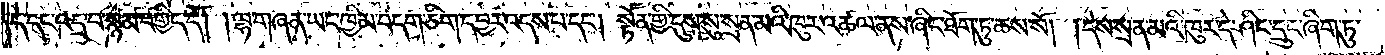དེ་དང་འདྲ་བསྙམ་བགྱིད་དོ། །ལྷ་གཞན་ཡང་ཁྱིམ་བདག་ཅིག་དབྱར་འདས་པ་དང༌། སྟོན་གྱི་དུས་སུ་སྲན་མའི་ཁུར་འཚལ་ནས་ཞིང་ཐོག་ཏུ་ཆས་སོ། །དེས་སྲན་མའི་ཁུར་དེ་ཤིང་དྲུང་ཞིག་ཏུ་
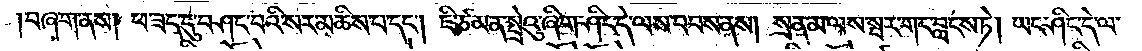བཞག་ནས། ཕ་ཟད་དུ་བཤང་བའི་སར་མཆིས་པ་དང༌། ཇི་ཙམ་ན་སྤྲེའུ་ཞིག་ཤིང་དེ་ལས་བབས་ནས། སྲན་མ་ལས་སྦར་གང་བླངས་ཏེ། ཡང་ཤིང་དེ་ལ་
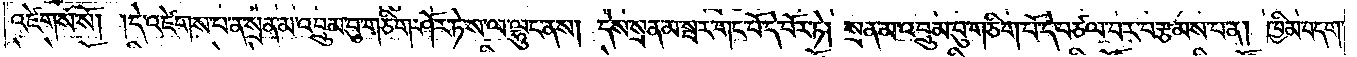འཛེགས་སོ། །དེ་འཛེགས་པ་ན་སྲན་མ་འབྲུམ་བུ་གཅིག་ཤོར་ཏེ་ས་ལ་ལྷུང་ནས། དེས་སྲན་མ་སྦར་གང་པོ་ད་བོར་ཏེ། སྲན་མ་འབྲུམ་བུ་གཅིག་པོ་དེ་བཙལ་བར་བརྩམས་པ་ན། ཁྱིམ་བདག་
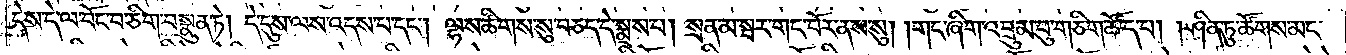དེས་དེ་ལ་བོང་བ་ཅིག་བསྣུན་ཏེ། དེ་དུས་ལས་འདས་པ་དང༌། ལྷས་ཚིགས་སུ་བཅད་དེ་སྨྲས་པ། སྲན་མ་སྦར་གང་བོར་ནས་སུ། །གང་ཞིག་འབྲུམ་བུ་གཅིག་ཚོད་པ། །ཤིན་ཏུ་ཚོགས་མང་
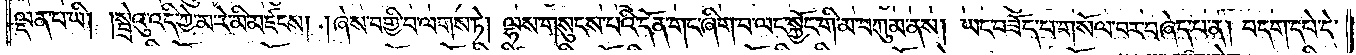ལྡན་པ་ཡི། །སྤྲེའུ་འདི་ཀྱེ་མ་རེ་མི་མཛངས། །ཞེས་བགྱི་བ་ལགས་ཏེ། ལྷས་གསུངས་པའི་དོན་གང་ཞིག་བ་ལང་སྐྱོང་གི་མ་བཀུམ་ནས། ཡང་བཟོད་པ་གསོལ་བར་བཞེད་པ་ན། བདག་དཔེ་དེ་
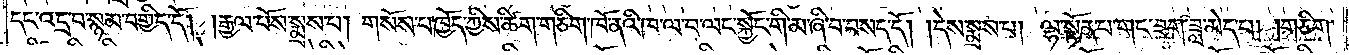དང་འདྲ་བ་སྙམ་བགྱིད་དོ། །རྒྱལ་པོས་སྨྲས་པ། གསོས་པ་ཁྱོད་ཀྱིས་ཚིག་གཅིག་ཁོ་ནའི་ཁ་ལ་བ་ལང་སྐྱོང་གི་མ་ཞི་བ་བསད་དོ། །དེས་སྨྲས་པ། ལྷ་སྟོན་པ་གང་ཟག་ཟླ་མེད་པ། །གཅིག་
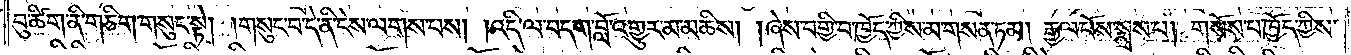བུ་ཚིག་ནི་གཅིག་གསུང་སྟེ། །གསུང་བ་དེ་ནི་ངེས་ལགས་པས། །འདི་ལ་བདག་བློ་འགྱུར་མ་མཆིས། །ཞེས་བགྱི་བ་ཁྱོད་ཀྱིས་མ་གསན་ཏམ། རྒྱལ་པོས་སྨྲས་པ། གསོས་པ་ཁྱོད་ཀྱིས་
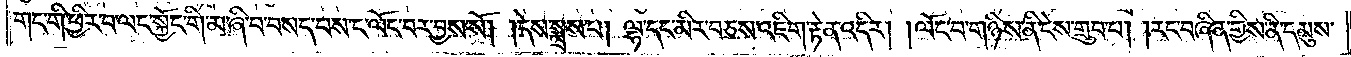གང་གི་ཕྱིར་བ་ལང་སྐྱོང་གི་མ་ཞི་བ་བསད་པས་ང་ལོང་བར་བྱས་སོ། །དེས་སྨྲས་པ། ལྷ་དང་མིར་བཅས་འཇིག་རྟེན་འདིར། །ལོང་བ་གཉིས་ནི་ངེས་གྲུབ་པ། །རང་བཞིན་གྱིས་ནི་དམུས་
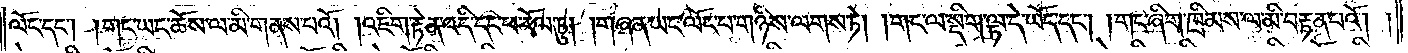ལོང་དང༌། །གང་ཡང་ཆོས་ལ་མི་གནས་པའོ། །འཇིག་རྟེན་འདི་དང་ཕ་རོལ་ཏུ། །གཞན་ཡང་ལོང་པ་གཉིས་ལགས་ཏེ། །གང་ལ་སྡིག་ལྟ་དེ་ཡོད་དང༌། །གང་ཞིག་ཁྲིམས་ལ་མི་བརྟན་པའོ། །
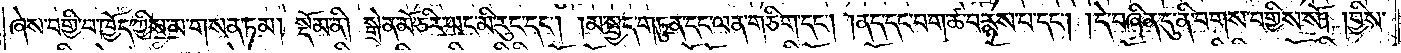ཞེས་བགྱི་བ་ཁྱོད་ཀྱིས་མ་གསན་ཏམ། སྡོམ་ནི། སྒྲེན་མོ་ཅིར་ཡང་མི་རུང་དང༌། །མ་སྤྱད་གཏུན་དང་ལན་གཅིག་དང༌། །ནད་དང་བག་ཚ་བརྙས་པ་དང༌། །དེ་བཞིན་དུ་ནི་བགས་བགྱིས་སོ། །བྱིས་
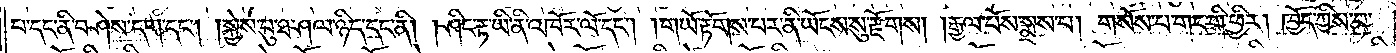པ་དང་ནི་བཤེས་དག་དང༌། །སྐྱེས་བུ་ཐ་ཤལ་ཉིད་དང་ནི། །ཤིང་རྟ་ཡི་ནི་འཁོར་ལོ་དང༌། །གཡོ་རྟོགས་པར་ནི་ཡོངས་སུ་རྫོགས། །རྒྱལ་པོས་སྨྲས་པ། གསོས་པ་གང་གི་ཕྱིར། ཁྱོད་ཀྱིས་བ་
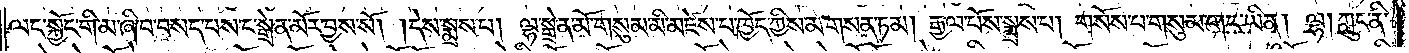ལང་སྐྱོང་གི་མ་ཞི་བ་བསད་པས་ང་སྒྲེན་མོར་བྱས་སོ། །དེས་སྨྲས་པ། ལྷ་སྒྲེན་མོ་གསུམ་མི་མཛེས་པ་ཁྱོད་ཀྱིས་མ་གསན་ཏམ། རྒྱལ་པོས་སྨྲས་པ། གསོས་པ་གསུམ་གང་ཡིན། །ལྷ། ཀླུང་ནི་
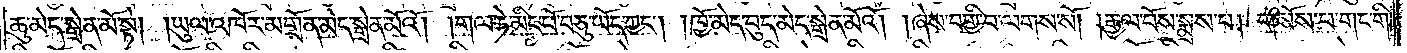ཆུ་མེད་སྒྲེན་མོ་སྟེ། །ཡུལ་འཁོར་མགྲོན་མེད་སྒྲེན་མོའོ། །གལ་ཏེ་མིང་པོ་བཅུ་ཡོད་ཀྱང༌། །ཁྱོ་མེད་བུད་མེད་སྒྲེན་མོའོ། །ཞེས་བགྱི་བ་ལགས་སོ། །རྒྱལ་པོས་སྨྲས་པ། གསོས་པ་གང་གི་
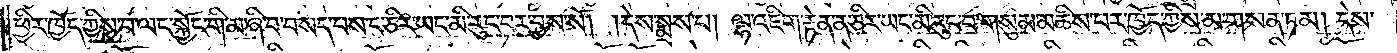ཕྱིར་ཁྱོད་ཀྱིས་བ་ལང་སྐྱོང་གི་མ་ཞི་བ་བསད་པས་ང་ཅིར་ཡང་མི་རུང་བར་བྱས་སོ། །དེས་སྨྲས་པ། ལྷ་འཇིག་རྟེན་ན་ཅིར་ཡང་མི་རུང་བ་གསུམ་མཆིས་པར་ཁྱོད་ཀྱིས་མ་གསན་ཏམ། དེས་
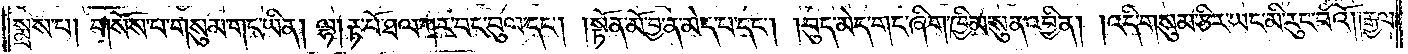སྨྲས་པ། གསོས་པ་གསུམ་གང་ཡིན། ལྷ། རྟ་པོ་ཐལ་ཀར་བང་བུལ་དང༌། །སྟོན་མོ་བྱ་ན་མེད་པ་དང༌། །བུད་མེད་གང་ཞིག་ཁྱིམ་སུན་འབྱིན། །འདི་གསུམ་ཅིར་ཡང་མི་རུང་བའོ། །རྒྱལ་
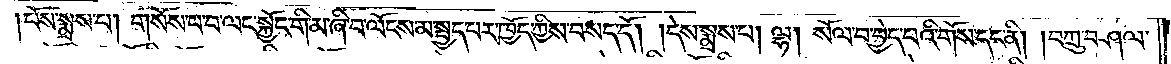པོས་སྨྲས་པ། གསོས་པ་བ་ལང་སྐྱོང་གི་མ་ཞི་བ་ལོངས་མ་སྤྱད་པར་ཁྱོད་ཀྱིས་བསད་དོ། །དེས་སྨྲས་པ། ལྷ། སོལ་བ་བྱེད་པའི་གོས་དང་ནི། །བཀྲུ་བཤལ་
